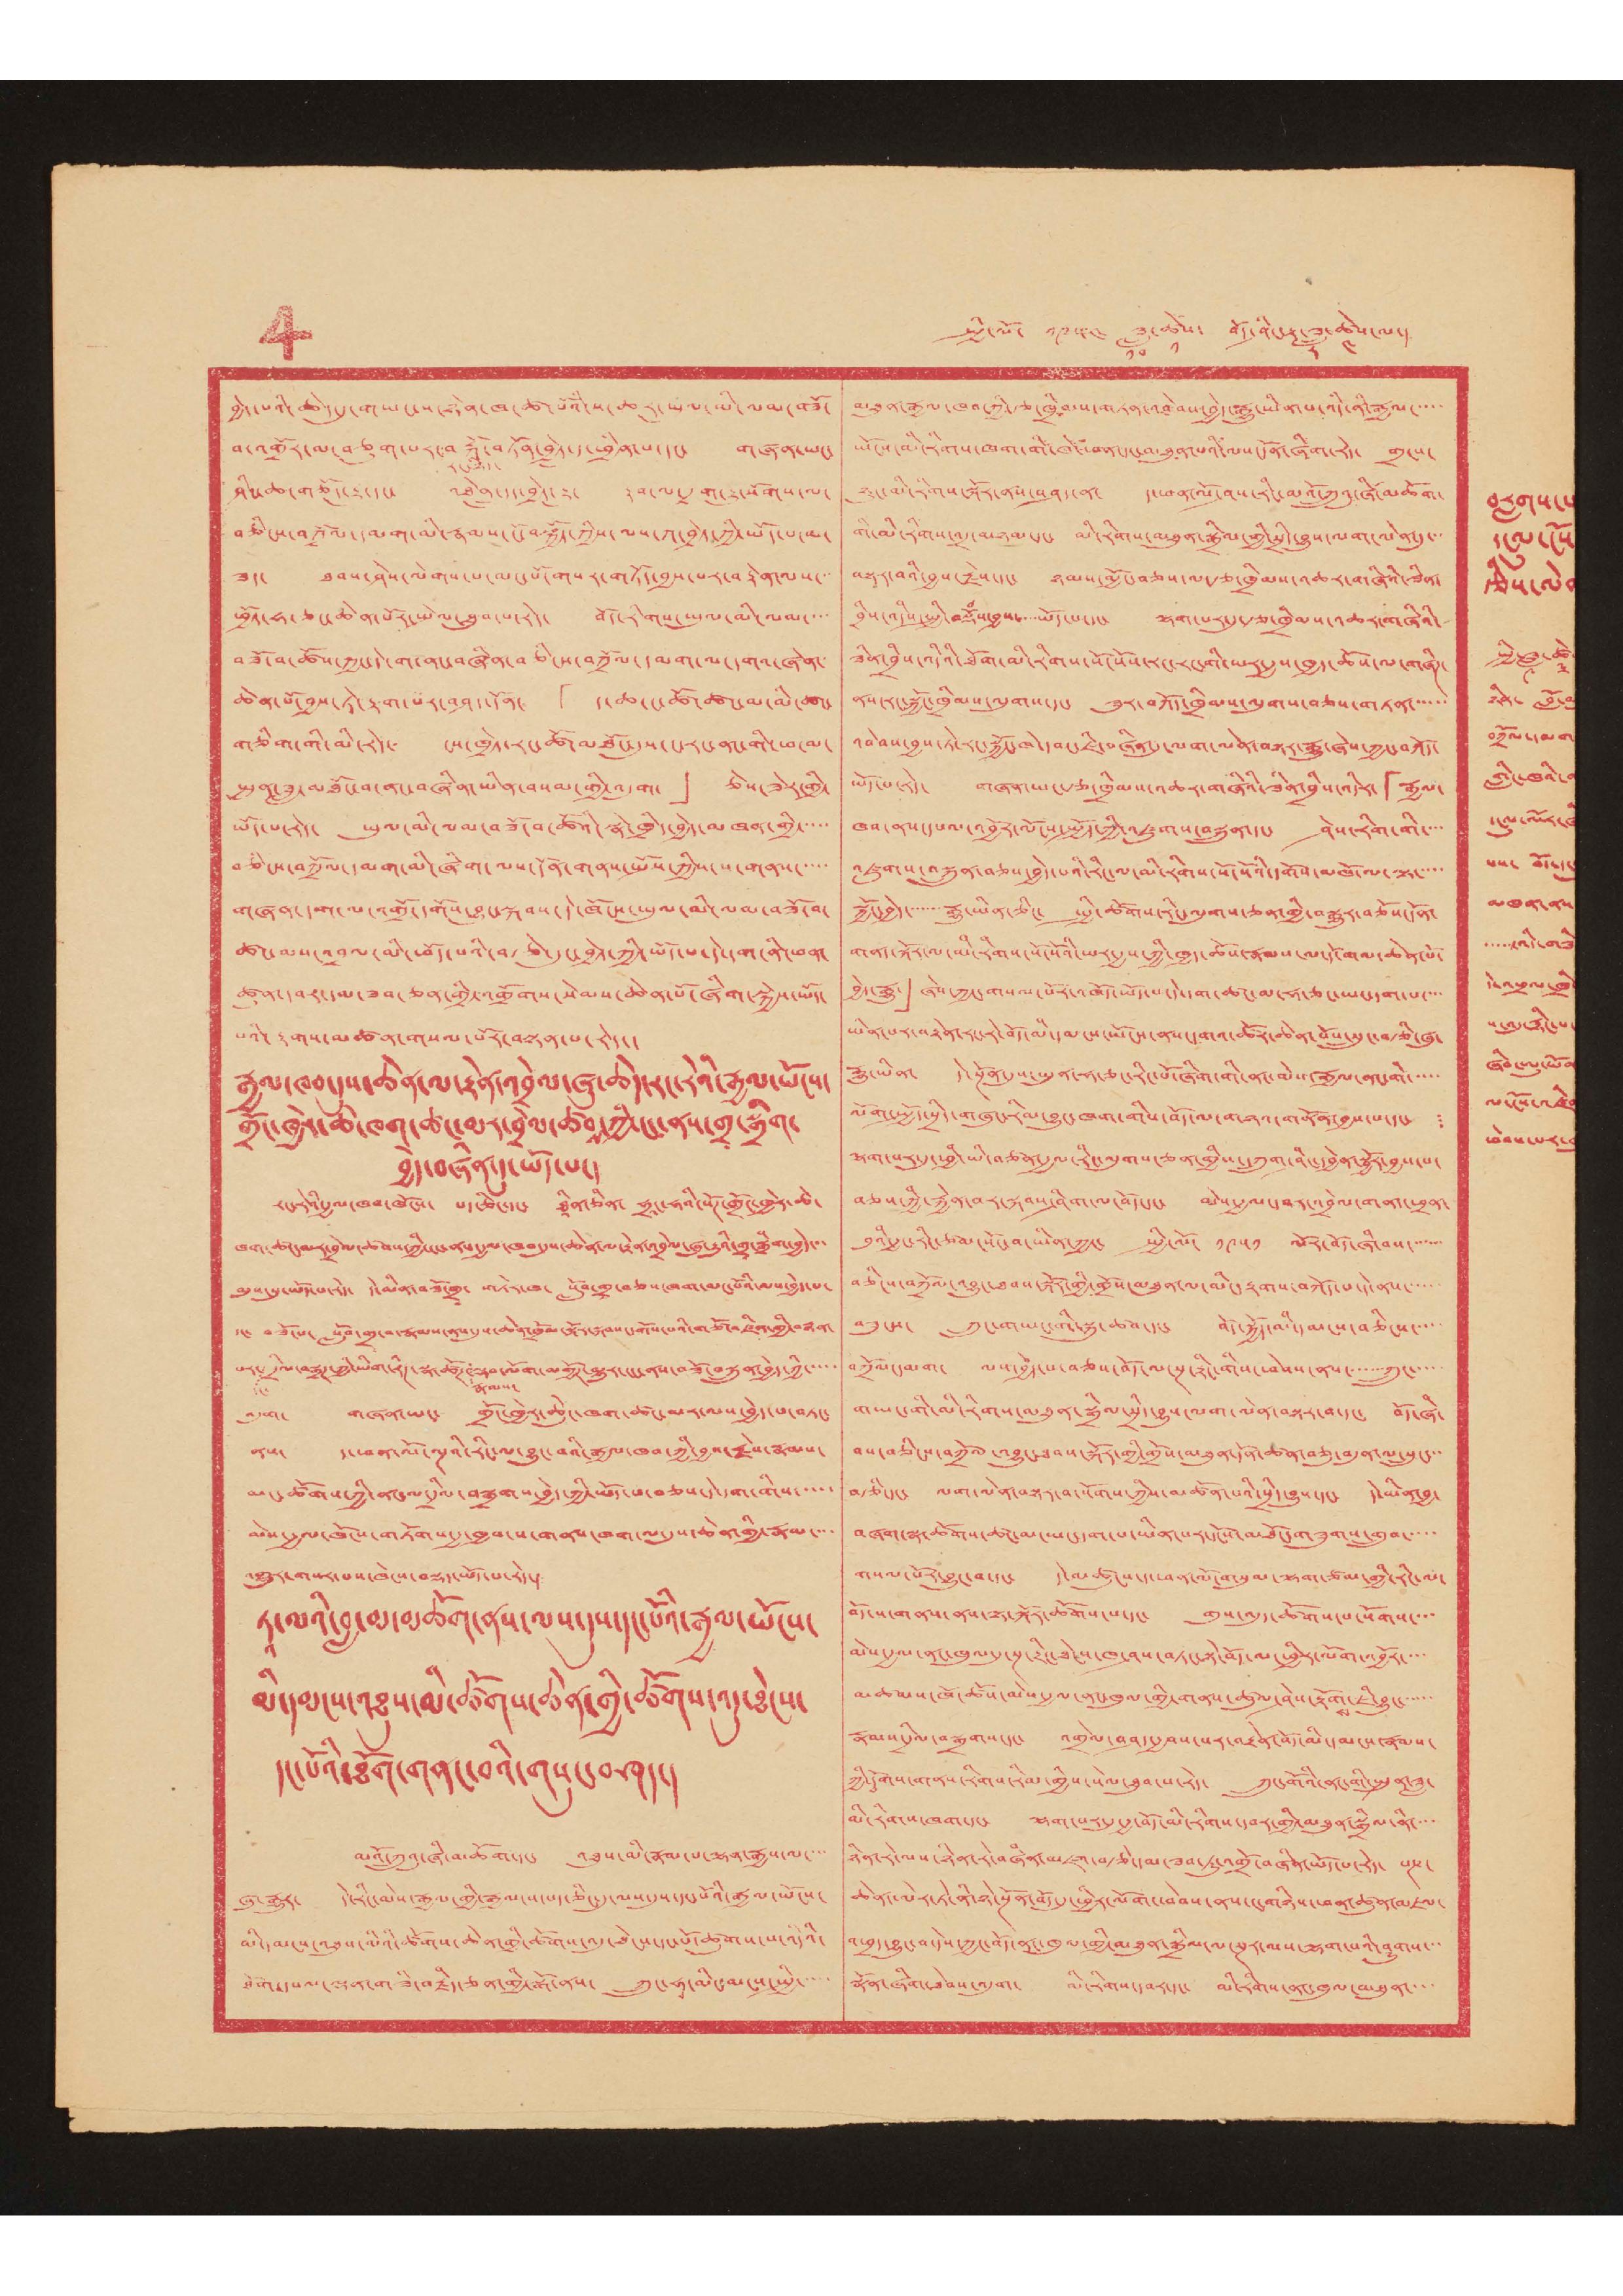4 སྤྱི་ལོ་ ༡༩༥༤ ཟླ་
༡༠
ཚེས་
༡
བོད་ཤིང་རྟ་ཟླ་
༨
ཚེས་
༤
ལ་།
བྱེད་པའི་ཆེད་དུ་གཡང་ས་ཉེན་ཁ་ཚ་པོའི་ས་ཆར་ཡུལ་མི་ལམ་བཟོ་
བ་འགྲོར་མ་བཅུག་པར་
རང་ཉིད་
བརྐོ་བཏོན་བྱེད་ད་ཕྱིན་པ་དང་ གཞན་ཡང་
ཤིང་ཆ་གཅོད་རྒྱུ་དང་ འཐེན་དྲུད་བྱེད་རྒྱུ་ རྟག་མ་དྲག་རྒྱུ་སོགས་ལ་
བཅིངས་བཀྲོལ་དམག་མི་རྣམས་ངོ་བསྐྱོད་ཀྱིས་ལས་ཀ་བྱེད་ཀྱི་ཡོད་པ་མ་
ཟད་ ཐབས་ཤེས་ལེགས་པ་མང་པོ་གསར་གཏོད་བྱས་པར་བརྟེན་ལས་་་
ཕྱོད་ཧ་ཅང་ཆེན་པོར་སྤེལ་ཐུབ་པ་རེད་ བོད་རིགས་ཡུལ་མི་ལམ་་་་
བཟོ་བ་ཚོས་ཀྱང་དེ་ག་ནང་བཞིན་བཅིངས་བཀྲོལ་དམག་ལ་དགའ་ཞེན་
ཆེན་པོ་བྱས་ཏེ་རྟག་པར་བཤད་དོན་ 「ད་ཆ་ང་ཚོ་ཚང་མ་མི་ཚང་
གཅིག་གི་མི་རེད་ ངས་ཁྱེད་རང་ཚོ་མཐོང་དུས་ང་རང་ནང་གི་ཕ་མ་
སྤུན་ཟླ་མཐོང་བ་ནང་བཞིན་ཡིན་བསམ་གྱི་འདུག་」 ཅེས་ཟེར་གྱི་
ཡོད་པ་རེད་ ཡུལ་མི་ལམ་བཟོ་བ་ཚོའི་སྣེ་ཁྲིད་བྱེད་མཁན་གྱི་་་་་
བཅིངས་བཀྲོལ་དམག་མི་ཞིག་ལས་དོན་གནས་སྤོས་ཀྱིས་ས་གནས་་་་་
གཞན་དག་ལ་འགྲོ་དགོས་བྱུང་སྐབས་དེ་ཁོངས་ཡུལ་མི་ལམ་བཟོ་བ་
ཚང་མས་འབྲལ་མི་ཕོད་པའི་བརྩེ་དུང་བྱེད་ཀྱི་ཡོད་པ་དེ་དག་ནི་ཕན་
ཚུན་དབར་དམ་ཟབ་ཅན་གྱི་འགྲོགས་སེམས་ཆེན་པོ་ཞིག་སྐྱེས་ཡོད་
པའི་རྟགས་མཚན་གསལ་པོར་བསྟན་པ་རེད་།
རྒྱལ་ཁབ་དུས་ཆེན་ལ་རྟེན་འབྲེལ་ཞུ་ཆེད་རང་རེའི་རྒྱལ་ཡོངས་
གྲོང་ཁྱེར་ཆེ་ཁག་ཚང་མར་བྲེལ་ཚབས་ཀྱི་ངང་ནས་གྲ་སྒྲིག་
བྱེད་བཞིན་དུ་ཡོད་པ་།
རང་རེའི་རྒྱལ་ཁབ་ཁོངས་ པད་ཅིང་དང་ ཐཱིན་ཅིན་ ཧྲཱང་ཧའི་སོཊ་གྲོང་ཁྱེར་ཆེ་
ཁག་ཚང་མར་བྲེལ་ཚབས་ཀྱི་ངང་ནས་རྒྱལ་ཁབ་དུས་ཆེན་ལ་རྟེན་འབྲེལ་ཞུ་རྒྱུའི་གྲ་སྒྲིག་བྱེད་་་
མུས་སུ་ཡོད་པ་རེད་ དེ་མིན་བཟོ་གྲྭ་ གཏེར་ཁ་ སློབ་གྲྭ་བཅས་ཁག་མང་པོའི་ལས་བྱེད་པ་
དང་ བཟོ་པ་ སློབ་གྲྭ་བ་རྣམས་ནས་དུས་ཆེན་ཁྲོམ་སྐོར་སྐབས་དགོས་པའི་གཙོ་འཛིན་གྱི་བརྙན་
པར་
དང་
དྲེལ་བསྒྲཊ་ཀྱི་ཡིག་རིཊ་སྣ་ཚོཊ་
རྣམས་
ལྡབ་ལོག་མགྱོཊ་མྱུར་ངང་ནས་བཟོ་བསྐྲུན་བྱེད་ཀྱི་་་་་
འདུག་ གཞན་ཡང་ གྲོང་ཁྱེར་ཆེུང་ཁག་ཚང་མར་ལས་བྱེད་པ་བཏང་
ནས་ ད་ཕན་ལོ་ལྔའི་རིང་ལ་བྱུང་བའི་རྒྱལ་ཁབ་ཀྱི་བྱས་རྗེས་རྣམས་
མང་ཚོགས་ཀྱི་ནང་ལ་དྲིལ་བསྒྲགས་བྱེད་ཀྱི་ཡོད་པ་བཅས་དེ་དག་གིས་་་་་
མེས་རྒྱལ་ཁོངས་གཏོགས་རྒྱ་ཁྱབ་ས་གནས་ཁག་ལ་དུས་ཆེན་གྱི་རྣམ་་་་
འགྱུར་གསར་པས་ཁེངས་བསྡད་ཡོད་པ་རེད་།
ཏཱ་ལའི་བླ་མ་མཆོག་ནས་ལས་དུས་དང་པོའི་རྒྱལ་ཡོངས་
མི་དམངས་འཐུས་མི་ཚོགས་ཆེན་གྱི་ཚོགས་འདུ་ཐེངས་
དང་པོའི་ཐོག་གནང་བའི་གསུང་བཤད་།
མའོ་ཀྲུའུ་ཞི་མཆོག་དང་ འཐུས་མི་རྣམ་པ་ལྷག་རྒྱས་ལ་་་་
ཞུ་རྒྱུར་ དེ་རིང་མེས་རྒྱལ་གྱི་རྒྱལ་ས་པད་ཅིང་དུ་ལས་དུས་དང་པོའི་རྒྱལ་ཡོངས་
མི་དམངས་འཐུས་མིའི་ཚོགས་ཆེན་གྱི་ཚོགས་འདུ་ཐེངས་དང་པོ་ཚུགས་པ་འདིའི་
ཐོག་དཔལལདན་གཟི་བརྗིད་ཅན་གྱི་སྒོ་ནས་ ཀྲུང་ཧྭ་མིང་མངས་སྤྱི་་་་་
མཐུན་རྒྱལ་ཁབ་ཀྱི་རྩ་ཁྲིམས་གཏན་འབེབས་བྱེད་རྒྱུ་ཡིན་པ་འདི་ནི་རྒྱལ་་་་་
ཡོངས་མི་རིགས་ཁག་གི་ཁེ་ཕན་དང་མཐུན་པའི་ལས་དོན་ཞིག་རེད་ གྲངས་
ཉུང་མི་རིགས་སྐོར་ནས་བཤད་ན་ ད་ཕན་ལོ་ཤས་རིང་མའོ་ཀྲུའུ་ཞི་མཆོག་
གི་མི་རིགས་འདྲ་མཉམ་དང་ མི་རིགས་མཐུན་སྒྲིལ་སྲིད་བྱུས་ལག་ལེན་དུ་་་
བསྟར་བའི་བྱས་རྗེས་དང་ ཉམས་མྱོང་བཅས་ལ་རྩ་ཁྲིམས་འཆར་གཞིའི་ཟིན་
བྲིས་འདིས་སྤྱི་བསྡོཾས་བྱས་་་་་ཡོད་པ་དང་ ལྷག་པར་དུ་རྩ་ཁྲིམས་འཆར་གཞིའི་
ཟིན་བྲིས་འདིའི་ཐོག་མི་རིགས་སོ་སོས་རང་རང་གི་ཡར་རྒྱས་ཁྱད་ཆོས་ལ་གཞིཊ་
ནས་རང་སྐྱོང་ཁྲིམས་ལུགས་དང་ ཟུར་བཀོད་ཁྲིམས་ལུགས་བཅས་གཏན་་་་་་
འབེབས་བྱས་ཏེ་རང་སྐྱོང་ཁེ་དབང་ཇི་བཞིན་དུ་ལག་ལེན་བསྟར་རྒྱུ་ཞེས་ཀྱང་བཀོད་
ཡོད་པ་རེད་ གཞན་ཡང་རྩ་ཁྲིམས་འཆར་གཞིའི་ཟིན་བྲིས་འདིར་ 「རྒྱལ་
ཁབ་ནས་དཔལ་འབྱོར་ལོངས་སྤྱོད་ཀྱི་འཛུགས་བསྐྲུན་དང་ ཤེས་རིག་གི་་་་
འཛུགས་བསྐྲུན་བཅས་བྱེད་པའི་རིང་ལ་མི་རིགས་སོ་སོའི་དགོས་མཁོ་ལ་ལྟ་་་་་
སྐྱོང་བྱེད་་་་་་་རྒྱུ་ཡིན་ཅིང་ སྤྱི་ཚོགས་རིང་ལུགས་ཅན་གྱི་བསྒྱུར་བཅོས་དོན་
གནད་སྐོར་ལ་མི་རིགས་སོ་སོའི་ཡར་རྒྱས་ཀྱི་ཁྱད་ཆོས་རྣམས་ལ་དོ་གལ་ཆེན་པོ་
བྱེད་རྒྱུ་」 ཞེས་ཀྱང་གསལ་པོར་འཁོད་ཡོད་པ་དེ་དག་ཚང་མ་ཧ་ཅང་ཡང་དག་པ་་་་
ཡིན་པར་བརྟེན་རང་རེ་བོད་མི་དམངས་ཡོངས་ནས་དགའ་ཚོར་ཆེན་པོས་སྲུང་བརྩི་ཞུ་
རྒྱུ་ཡིན་ དེ་སྔོན་དུས་ཡུན་ཧ་ཅང་རིང་པོ་ཞིག་གི་ནང་མེས་རྒྱལ་ནང་གི་་་་་
ལོག་སྤྱོད་སྲིད་གཞུང་རིམ་བྱུང་ཁག་གིས་བོད་ལ་གཉའ་གནོན་བྱས་པ་དང་ །
ལྷག་པར་དུ་ཕྱི་ཡི་བཙན་རྒྱལ་རིང་ལུགས་ཅན་གྱིས་དཀྲུག་ཤིང་དབྱེན་སྦྱོར་བྱས་པ་
བཅས་ཀྱི་རྐྱེན་བར་སྐབས་ཤིག་ལ་བོད་དང་ མེས་རྒྱལ་དབར་འབྲེལ་གནད་ཕྲན་
བུའི་རྒྱང་རིང་ཙམ་སོང་བ་ཡིན་ཀྱང་ སྤྱི་ལོ་ ༡༩༥༡ ལོར་བོད་ཞི་བས་་་་་་་
བཅིངས་བཀྲོལ་འབྱུང་ཐབས་སྐོར་གྱི་གྲོས་མཐུན་ལ་མིང་རྟགས་བཀོད་པ་དེ་ནས་་་་་་
བཟུངས་ ཀྲུང་གཡང་གི་སྐུ་ཚབ་དང་ བོད་སྐྱོད་མི་དམངས་བཅིངས་་་་་
བཀྲོལ་དམག་ ལས་བྱེད་པ་བཅས་བོད་ལ་སྔ་རྟིང་གིས་ཕེབས་ནས་་་་་་་ཀྲུང་་་་་
གཡང་གི་མི་རིགས་མཐུན་སྒྲིལ་སྲི་བྱུས་ལག་ལེན་བསྟར་བ་དང་ བོད་ཞི་
བས་བཅིངས་བཀྲོལ་འབྱུང་ཐབས་སྐོར་གྱི་གྲོས་མཐུན་དོན་ཚན་བཅུ་བུན་ལ་སྲུང་་་
བཙི་དང་ ལག་ལེན་བསྟར་བ་སོགས་ཀྱིས་མཚོན་པའི་སྲིད་བྱུས་དང་ དེ་ཡིན་བྱ་
བཞག་སྣ་ཚོགས་ཚང་མ་ཡང་དག་པ་ཡིན་པར་དངོས་མཐོང་གཟུགས་གྲུབ་་་་
གསལ་པོར་བྱུང་བ་དང་ དེ་མཚུངས་ད་ཕན་ལོ་གསུམ་ལྷག་ཙམ་གྱི་རིང་ལ་
བོད་ས་གནས་ནས་ལྟ་སྐོར་ཚོགས་པ་དང་ གུས་འདུད་ཚོགས་པ་སོགས་་་་
མེས་རྒྱལ་ནང་ཁུལ་དུ་སྔ་རྟིང་ཐེངས་ཁ་ཤས་བཏང་སྟེ་བོད་ལ་ཕྱིར་ལོག་འབྱོར་་་་
མཚམས་ཁོ་ཚོས་མེས་རྒྱལ་ནང་ཁུལ་གྱི་གནས་ཚུལ་ཤེས་རྟོག
ས
་ཇི་བྱུང་་་་་་
རྣམས་རྒྱིལ་བརྒྱགས་དང་། འགྲེལ་བཤད་རྒྱབས་པར་བརྫེན་འོད་མི་དམངས་རྣམས་
ཀྱི་དོགས་གནས་རིགས་རིམ་གྱིས་སེལ་ཐུབ་པ་རེད། ཀྲུང་གོའི་ནང་གི་སྤྱན་ཟླ་
མི་རིགས་ཁྲག་དང་། རྟག་པར་དུ་རྒྱ་བོད་མི་རིགས་དབར་གྱི་མཐུན་སྒྲིལ་ནི་་་་
ཉིན་རེ་ལས་ཉིན་རེ་བཞིན་མཛ་བཙེ་དམ་ཟབ་ཏུ་འགྲོ་བཞིན་ཡོད་པ་རེད། སྔ་
ཆེན་མེར་དེ་ནི་ཉེ་སྔོན་བོད་དུ་སྤྱིར་ལོག་ཕེབས་ནས་ང་གཉིས་ཕན་ཚུན་མཇལ་
འཕྲད་བྱུང་བ་དེས་ཀྱང་བོད་ཎག་ཁུལ་གྱི་མཐུན་སྒྲིལ་ལ་སྔར་ལས་ལྷག་པའི་བྱུགས་་་
ཞོན་ཞིག་ཐེབས་འདུག། མི་རིགས་དབར་དང་། མི་རིགས་ནང་ཁུལ་མཐུན་་་་
བརླགས་པ
དངུལ་ངོས
ཙིས་ལེ
སྤྱི་ཟླ་
༩
ཚེ
༣
ཉིན་བློ་
བཀྲོལ་དམག་
གླིང་ཁྲའི་བ
དངུལ་ལོར་
པས་བོད་
མཁན་ནས
་་་་་ངའི་གཟི
དེར་ཕྲལ་ཁྲི
པ་ཨུ་རྙིང་པ་
ཞིབ་ཨུ་ཡོན
ལ་ངོས་འཛིན
ཕེབས་པར་
